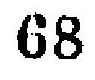68
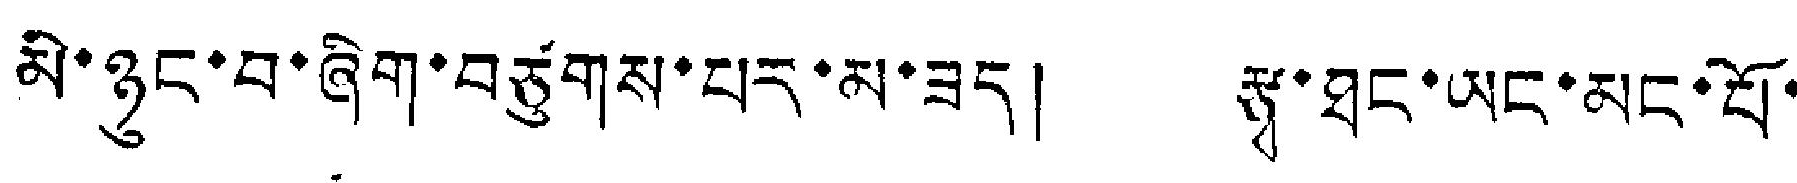མི་ཉུང་བ་ཞིག་བཙུགས་པར་མ་ཟད། རྩྭ་ཐང་ཡང་མང་པོ་
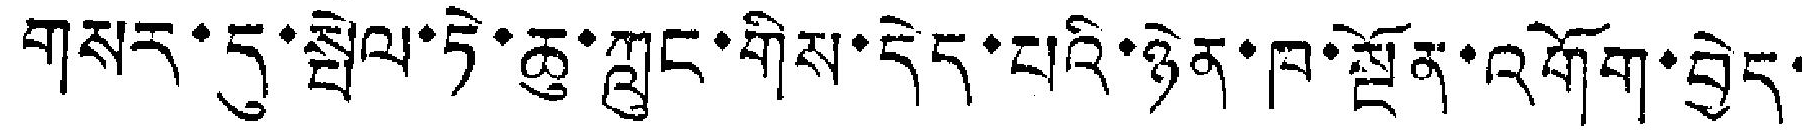གསར་དུ་སྤེལ་ཏེ་ཆུ་ཀླུང་གིས་དེད་པའི་ཉེན་ཁ་སྔོན་འགོག་བྱེད་
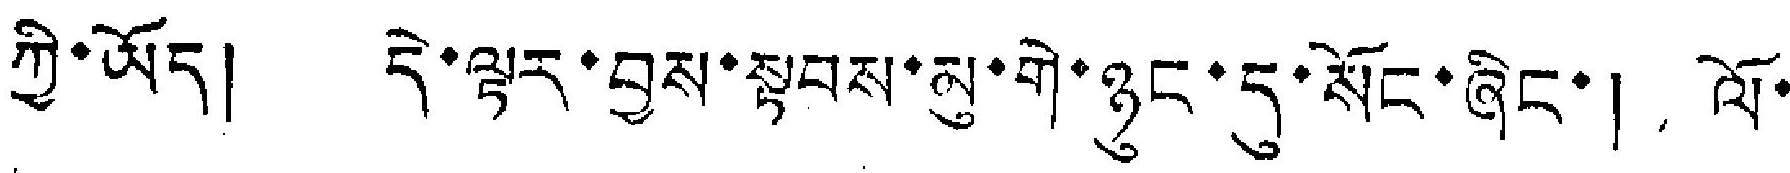ཀྱི་ཡོད། དེ་ལྟར་བྱས་སྟབས་མུ་གེ་ཉུང་དུ་སོང་ཞིང་། ལོ་
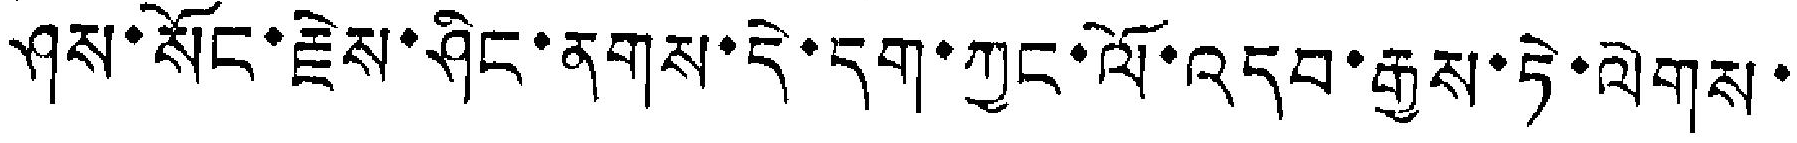ཤས་སོང་རྗེས་ཤིང་ནགས་དེ་དག་ཀྱང་ལོ་འདབ་རྒྱས་ཏེ་ལེགས་
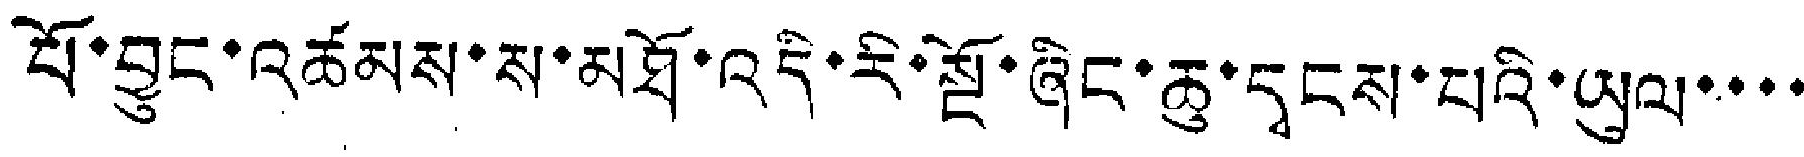པོ་བྱུང་འཚམས་ས་མཐོ་འདི་རི་སྔོ་ཞིང་ཆུ་དྭངས་པའི་ཡུལ་་་་
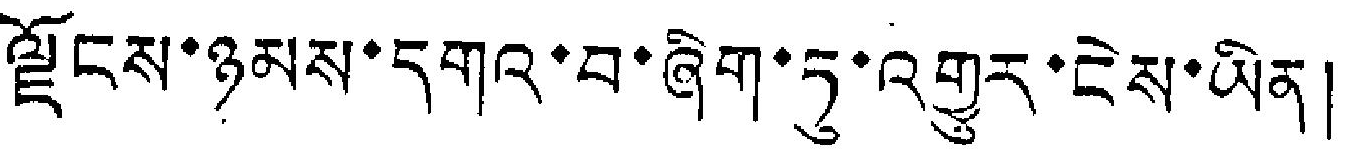ལྗོངས་ཉམས་དགའ་བ་ཞིག་ཏུ་འགྱུར་ངེས་ཡིན།
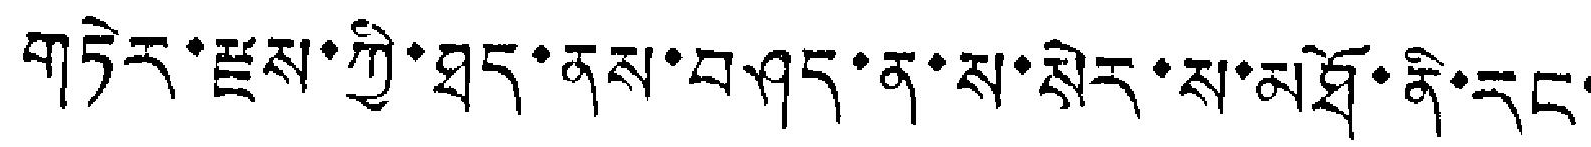གཏེར་རྫས་ཀྱི་ཐད་ནས་བཤད་ན་ས་སེར་ས་མཐོ་ནི་རང་
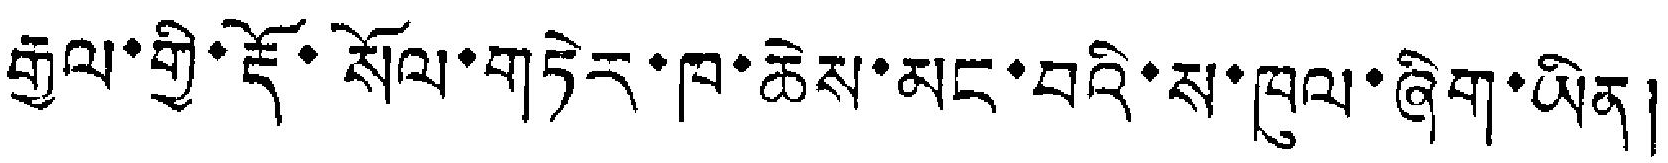རྒྱལ་གྱི་རྡོ་སོལ་གཏེར་ཁ་ཆེས་མང་བའི་ས་ཁུལ་ཞིག་ཡིན།
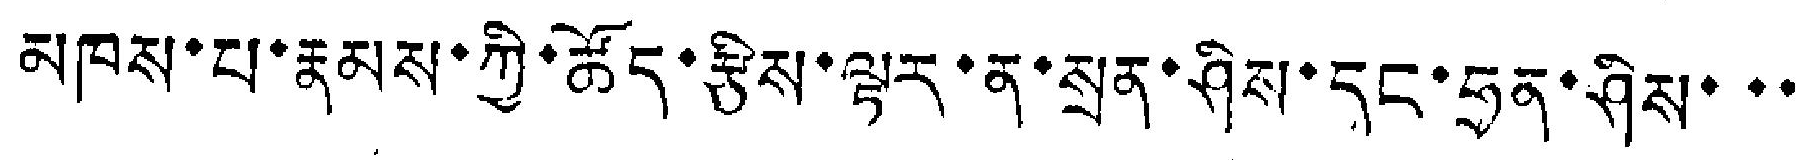མཁས་པ་རྣམས་ཀྱི་ཚོད་རྩིས་ལྟར་ན་སྲན་ཤིས་དང་ཧྲན་ཤིས་་་
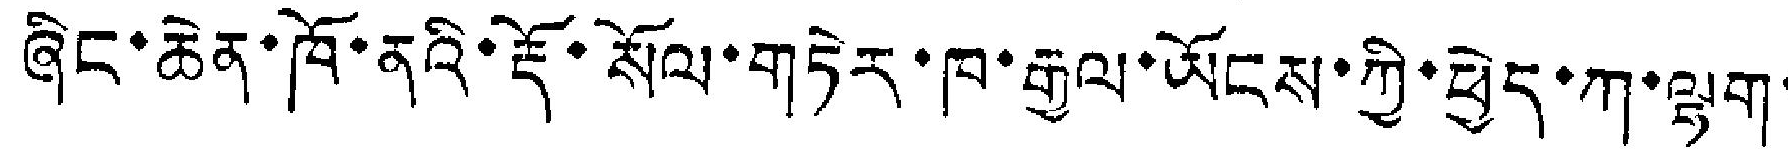ཞིང་ཆེན་ཁོ་ནའི་རྡོ་སོལ་གཏེར་ཁ་རྒྱལ་ཡོངས་ཀྱི་ཕྱེད་ཀ་ལྷག་
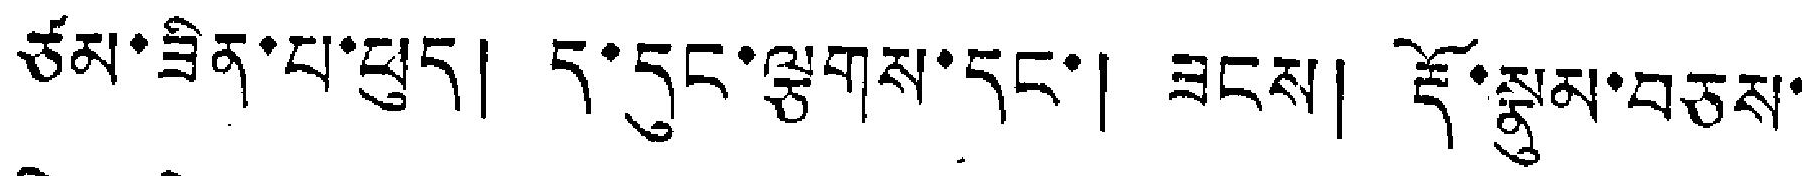ཙམ་ཟིན་པ་ཕུད། ད་དུང་ལྕགས་དང་། ཟངས། རྡོ་སྣུམ་བཅས་
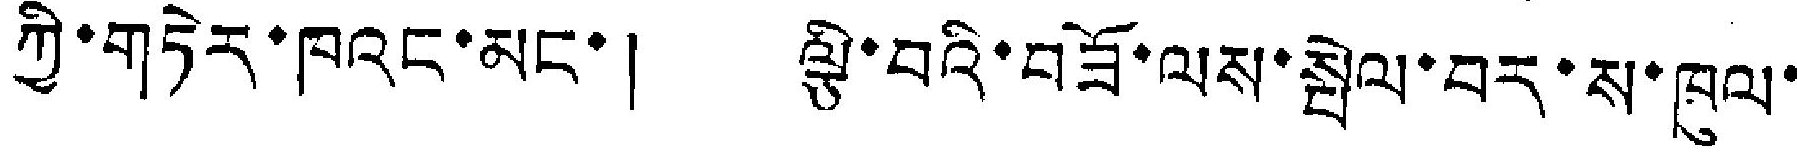ཀྱི་གཏེར་ཁའང་མང་། ལྕི་བའི་བཟོ་ལས་སྤེལ་བར་ས་ཁུལ་
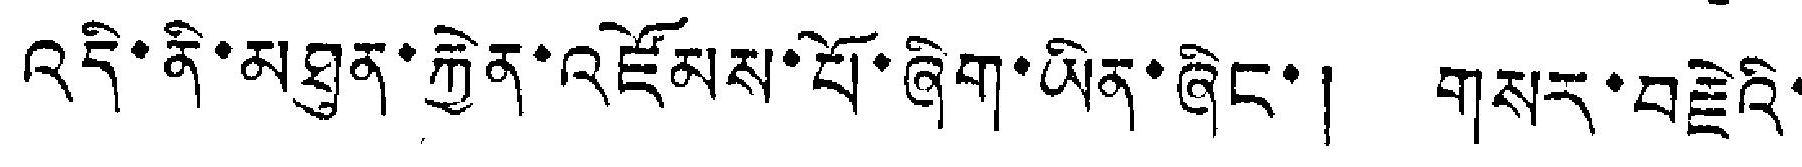འདི་ནི་མཐུན་རྐྱེན་འཛོམས་པོ་ཞིག་ཡིན་ཞིང་། གསར་བརྗེའི་
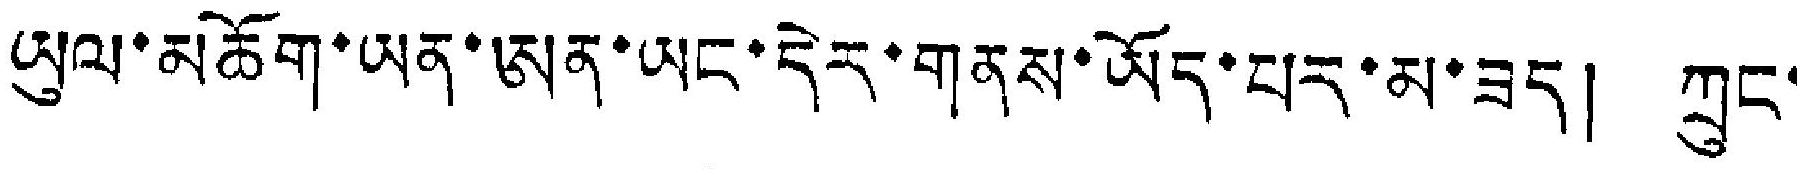ཡུལ་མཆོག་ཡན་ཨན་ཡང་དེར་གནས་ཡོད་པར་མ་ཟད། ཀྲུང་
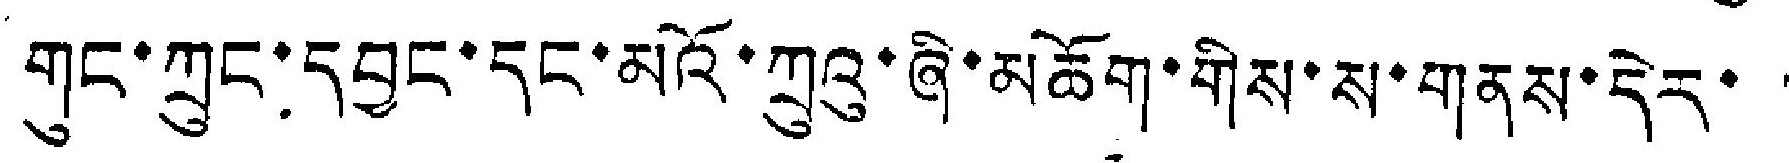གུང་ཀྲུང་དབྱང་དང་མའོ་ཀྲུའུ་ཞི་མཆོག་གིས་ས་གནས་དེར་
